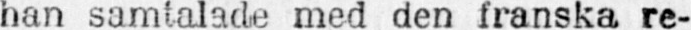han samtalade med den franska re-
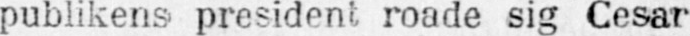publikens president roade sig Cesar
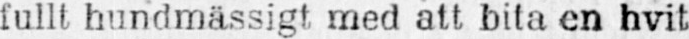fullt hundmässigt med att bita en hvit
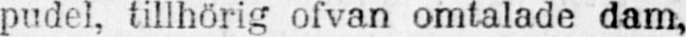pudel, tillhörig ofvan omtalade dam,
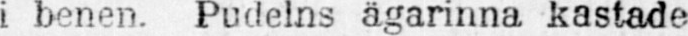i benen. Pudelns ägarinna kastade
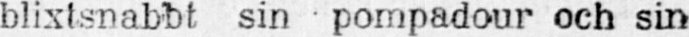blixtsnabbt sin pompadour och sin
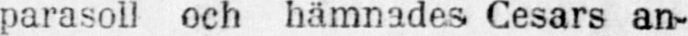parasoll och hämnades Cesars an-
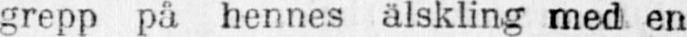grepp på hennes älskling med en
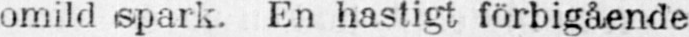omild spark. En hastigt förbigående
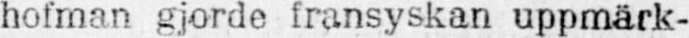hofman gjorde fransyskan uppmärk-
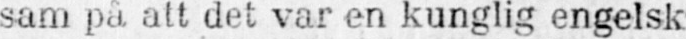sam på att det var en kunglig engelsk
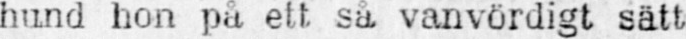hund hon på ett sä vanvördigt sätt
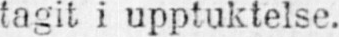tagit i upptuktelse.
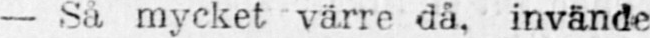— Så mycket värre då. invände
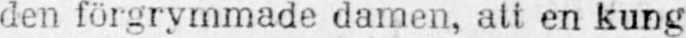den förgrymmade damen, att en kung
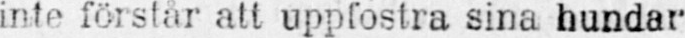inte förstår att uppfostra sina hundar
